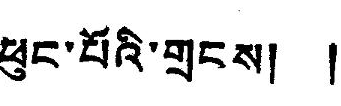ཕུང་པོའི་གྲངས། །
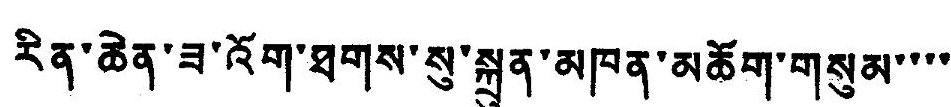རིན་ཆེན་ཟ་འོག་ཐགས་སུ་སྐྲུན་མཁན་མཆོག་གསུམ་་་་
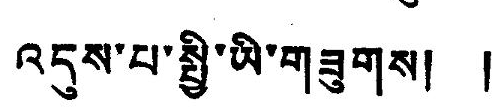འདུས་པ་སྤྱི་ཡི་གཟུགས། །
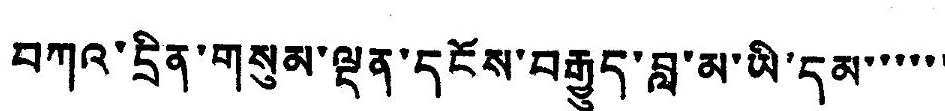བཀའ་དྲིན་གསུམ་ལྡན་དངོས་བརྒྱུད་བླ་མ་ཡི་དམ་་་་་་
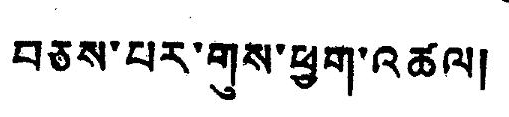བཅས་པར་གུས་ཕྱག་འཚལ།
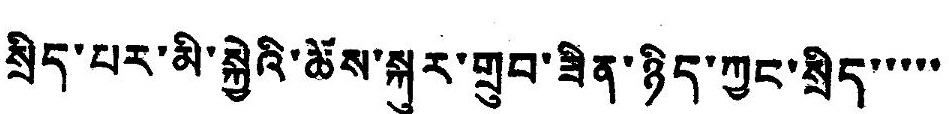སྲིད་པར་མི་སྐྱེའི་ཆོས་སྐུར་གྲུབ་ཟིན་ཉིད་ཀྱང་སྲིད་་་་་
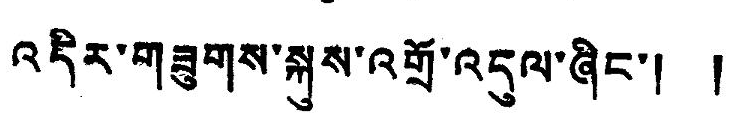འདིར་གཟུགས་སྐུས་འགྲོ་འདུལ་ཞིང་། །
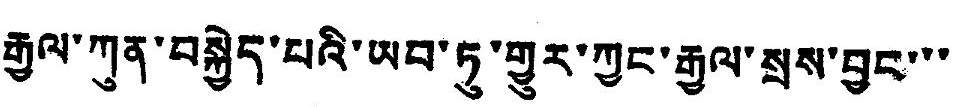རྒྱལ་ཀུན་བསྐྱེད་པའི་ཡབ་ཏུ་གྱུར་ཀྱང་རྒྱལ་སྲས་བྱང་་་
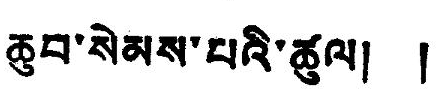ཆུབ་སེམས་པའི་ཚུལ། །
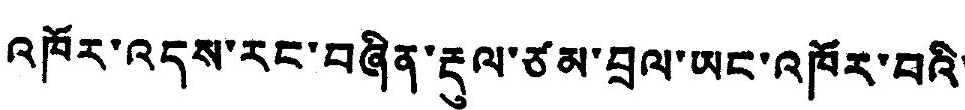འཁོར་འདས་རང་བཞིན་རྡུལ་ཙམ་བྲལ་ཡང་འཁོར་བའི་
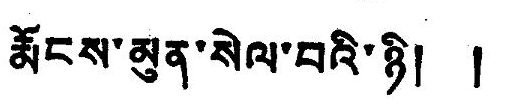རྨོངས་མུན་སེལ་བའི་ཉི། །
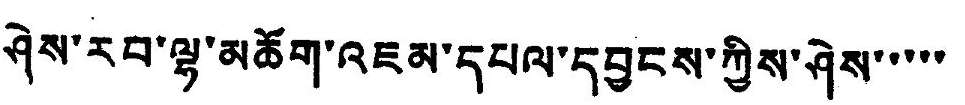ཤེས་རབ་ལྷ་མཆོག་འཇམ་དཔལ་དབྱངས་ཀྱིས་ཤེས་་་་་
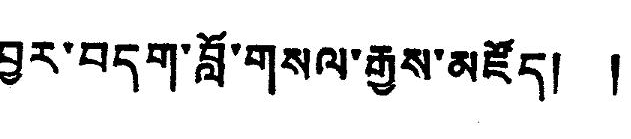བྱར་བདག་བློ་གསལ་རྒྱས་མཛོད། །
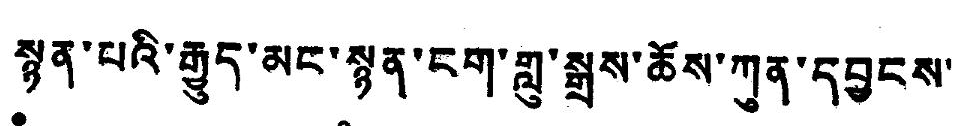སྙན་པའི་རྒྱུད་མང་སྙན་ངག་གླུ་སྒྲས་ཆོས་ཀུན་དབྱངས་
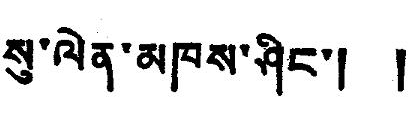སུ་ལེན་མཁས་ཤིང་། །
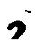2
